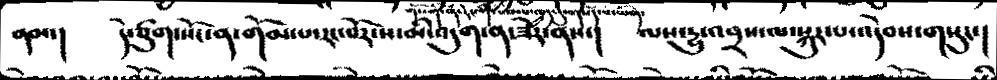ནམ་།      དེ་ཙུག་སོང་ན་གོམ་པ་རང་པོར་ས་མི་འདུག་ན་ཟེར་ནས་།   ལས་རྱུ་འབྲས་ལ་སྐུར་པ་འདེབས་གསུང་།
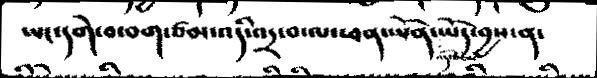ཡང་དགེ་བ་བག་ཙམ་འདི་འདྲ་བ་ལ་ཕན་ཡོན་འདི་ཙམ་ཡོད་བྱས་ན་
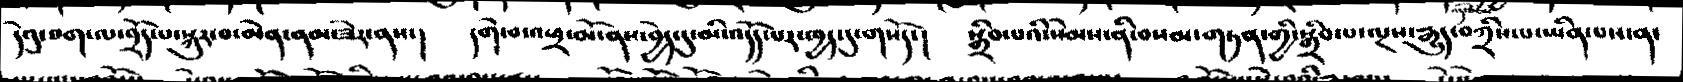དེའུ་བག་ལ་བྲོད་པ་སྐུར་བ་མེན་ནམ་ཟེར་ནས་།  དགེ་བ་འཕྲ་མོ་ནས་བྱེད་དུ་མི་འདོད་པར་ཁྱད་དུ་གསོད་།   སྒྲིབ་པའི་སེམས་ནི་བསམ་གཏན་གྱི་སྒྲིབ་པ་ལྔས་རྒྱུད་བཀྲིས་པ་ཡིན་པས་ན་
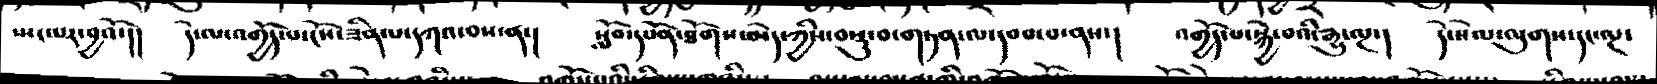སྤང་པར་བྱའོ་།།  དེ་ལ་འགྱོད་པ་ངོས་ཟིན་པ་དཀའ་བས་ན་།  སློབ་དཔོན་ཐོགས་མེད་ཀྱིས་བསྡུ་བ་གཏན་ལ་དབབ་པ་ནས་།  འགྱོད་པ་སྐྱེ་བའི་རྒྱུ་ལྔ་།   དེ་སེལ་ལུགས་དང་ལྔ་
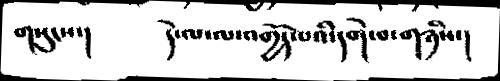གསུངས་།   དེ་ལ་ལ་འགྱོད་པའི་དགེ་བ་གཉིས་།
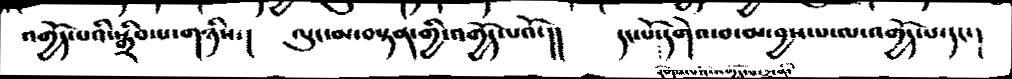འགྱོད་པའི་སྒྲིབ་པ་གཉིས་།  ལུང་མ་བསྟན་གྱི་འགྱོད་པའོ་།།  དང་པོ་རིགས་པའི་འགྱོད་པ་༢་ནི་དགེའ་བ་མ་བྱས་པ་ལ་འགྱོད་པ་དང་།
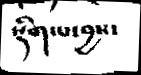སྡིག་པ་བྱས་
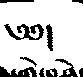༄༅།
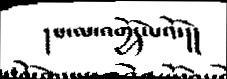།པ་ལ་འགྱོད་པའོ་།།
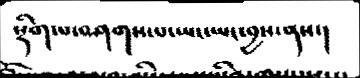སྡིག་པ་བཤགས་པ་ཡང་ཡང་བྱས་ནས་།
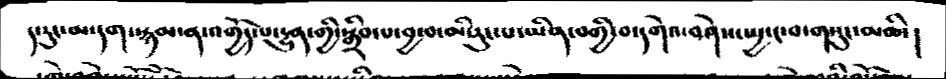ད་རུང་མ་དག་སྙམ་ན་འགྱོད་པ་རྱུན་གྱི་སྒྲིབ་པ་བྱ་བ་མི་རུང་པ་ཡིན་བགྱི་བ་བཤེས་ཡྱ་ང་བ་གསུང་མཆི་།
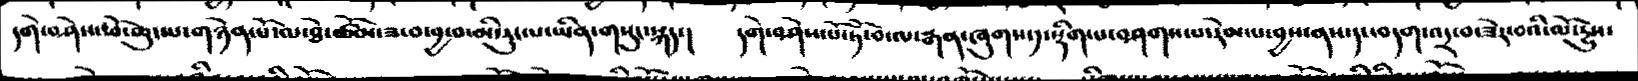དགེ་བཤེས་ཕ་ཆུང་པ་གཉེན་པོ་ལ་ཐེ་ཚོམ་ཟ་བ་མི་རུང་པ་ཡིན་གསུང་སྐད་།   དགེ་བཤེས་པོ་ཏོ་བ་ལ་རྒན་ཞུགས་དུ་སྡིག་པ་བཤགས་པ་རེམ་པ་བྱས་ནས་དང་བདག་འདྲ་བ་ཟེར་བའི་ལོ་རྱུས་
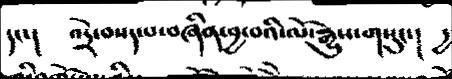དང་།   འདྲེ་བསད་པ་བཞིན་བྱ་བའི་ལོ་རྒྱས་གསུང་། དྱ
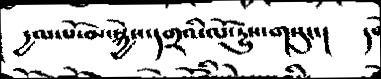དྱལ་པོ་མ་སྐྱེས་དགྲའི་ལོ་རྱུས་གསུང་།   དགེ་
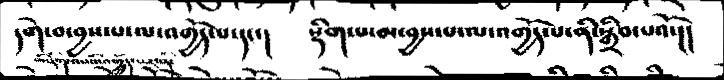དགེ་བ་བྱས་པ་ལ་འགྱོད་པ་དང་།    སྡིག་པ་མ་བྱས་པ་ལ་འགྱོད་པ་ནི་སྒྲིབ་པའོ་།།
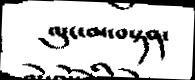ལུང་མ་བསྟན་
